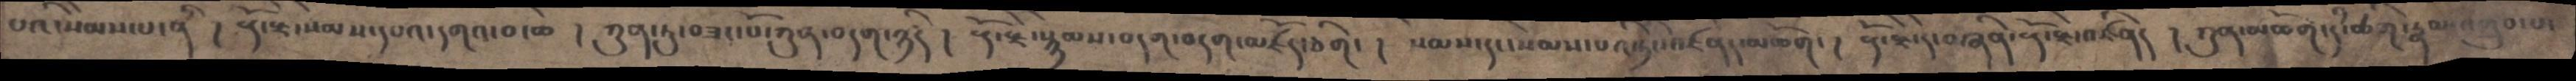པའི་སེམས་པ་ནི ། རྡོ་རྗེ་སེམས་དཔའ་དགའ་བ་ཆེ ། ཀུན་ཏུ་བཟང་པོ་ཀུན་བདག་ཉིད ། རྡོ་རྗེ་སྙེམས་བདག་བདག་མཛོད་ཅིག་ ། སེམས་དང་སེམས་པའི་ཏིང་འཛིནད་མཆོག་ ། རྡོ་རྗེ་དེ་བཞིན་རྡོ་རྗེ་འཛིན། །ཀུན་མཆོག་དཾ་ཚིག་རྣམ་འགྲུབ་པ་
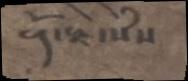རྡོ་རྗེ་སེཾས
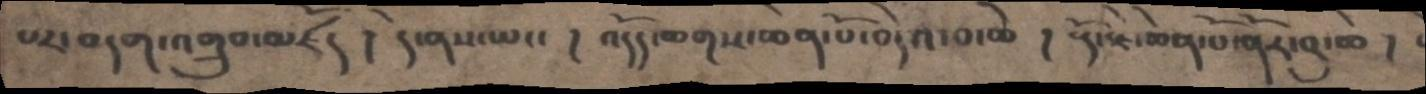པར་བདག་འགྲུབ་མཛད ། དེ་ནས་ཡང་ ། འདོད་ཆགས་ཆེན་པོ་བདེའ་བ་ཆེ ། རྡོ་རྗེ་ཆེན་པོ་ནོར་བུ་ཆེ །
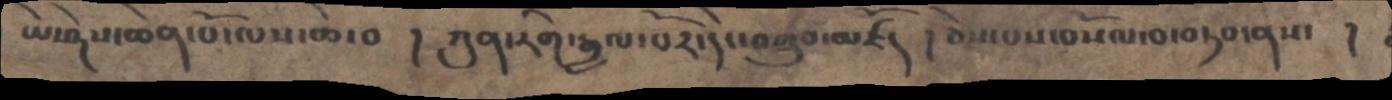ཡེ་ཤེས་ཆེན་པོ་ལས་ཆེ་བ  ། ཀུན་རིག་རྒྱལ་པོར་དེ་འགྲུབ་མཛད ། ཅེས་པས་བསོལ་བ་བཏབ་ནས་  །
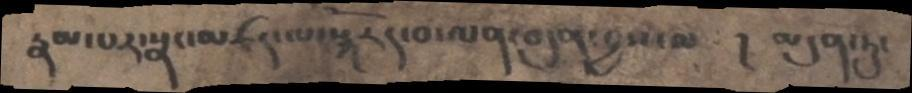རྣམ་པར་སྣང་མཛད་ལ་སྐོརད་བ་ལན་བདུན་བྱས་ལ  ། མདུན་ཏུ་
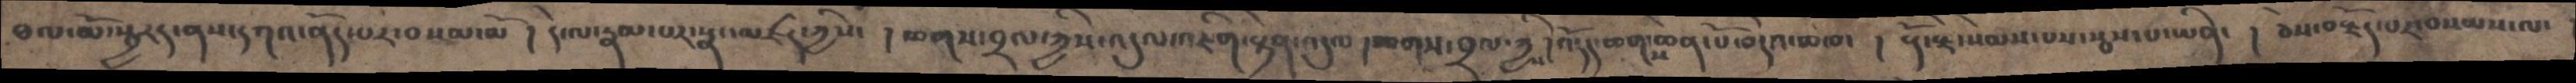ཐལ་མོ་སྦྱརད་ནས་དཀའ་ནོད་པར་བསམ་མོ། དེ་ལ་རྣམ་པར་སྣང་མཛད་ཀྱིས་ ། ཆགས་བྲལ་ཀྱིས་འདུལ་འཇིག་རྟེན་འདུལ། ཆགས་བྲལ་ཀྱིས ། འདོད་ཆགས་ཆེན་པོ་བདེའ་ཆེ་བ་ ། རྡོ་རྗེ་སེམས་པས་སྦས་པ་ཡིན་ ། ཅེས་བརྗོད་པར་བསམས་ལ་
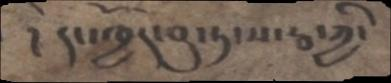། དང་ཁྱོད་བུ་ཏ་ས་རྦ་ཀྱི་
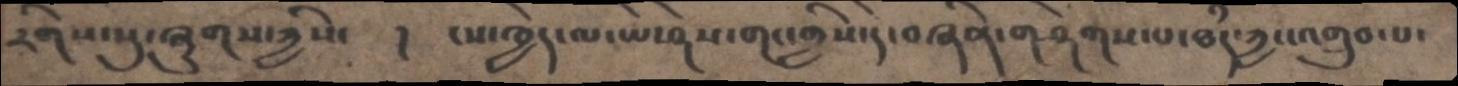རིགས་སུ་ཞུགས་ཀྱིས་  ། ངས་ཁྱེད་ལ་ཡེ་ཤེས་གང་གྱིས་དེ་བཞིན་གཤེགས་པ་ཐཾད་ཀྱང་འགྲུབ་པ་
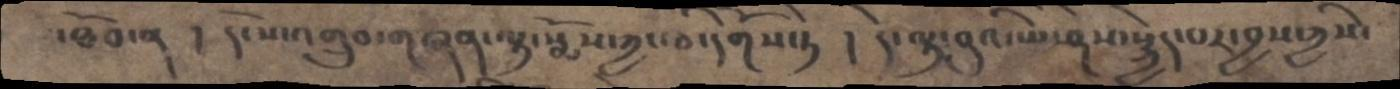་ཐོབ་ན  ། དངོས་འགྲུབ་གཞན་ལྟ་སྨོས་ཀྱང་ཅི་དགོས་ཏེ  ། དེ་ལྟ་བུའ་ཡེ་ཤེས་སྐྱེད་པར་བྱས་ཀྱིས་
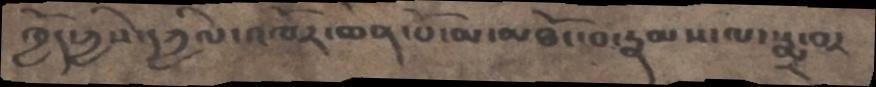ཁྱོད་ཀྱིས་དཀྱིལ་འཁོར་ཆེན་པོ་མ་མཐོང་བ་རྣམས་ལ་སྨྲ་བར
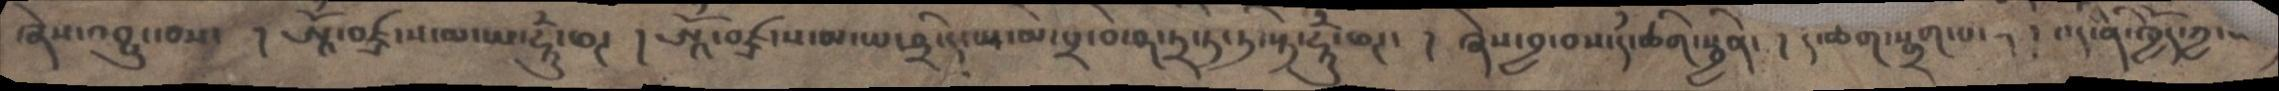ཞེས་འབྱུང་བས་ ། ཨཱོྃ་བཛྲ་ས་མ་ཡ་ཧཱུྃ་ཕཊ ། ཨཱོྃ་བཛྲ་ས་མ་ཡ་ཤྲི་ད་ཡ་མེ་པྲ་བེ་ཤ་ཏྲ་ཏེ་ཏ་སྟི་ཧཱུྃ་ཕཊ་ ། ཞེས་བྱ་བས་དཾ་ཚིག་སྦྱིན་ ། དཾ་ཚིག་སྒྲག་པའི་། འདི་ནི་ཁྱོད་ཀྱི་
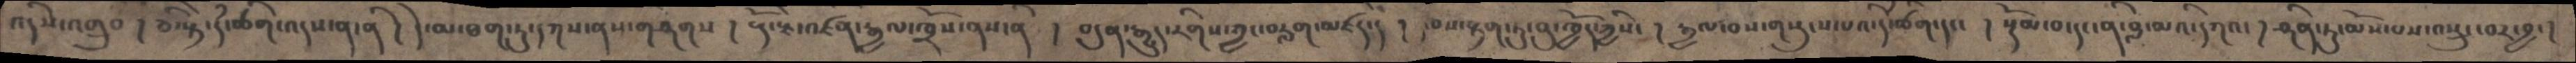འདིས་འགྲུབ ། ཅི་སྟེ་དཾ་ཚིག་འདས་ན་ནི ། དེ་མ་ཐག་ཏུ་དཀས་ནས་གཤགས ། རྡོ་རྗེ་འཛིན་རྒྱལ་ཁྲོས་ནས་ནི ། བདུན་རྒྱུད་རིགས་ཀྱང་བརླག་མཛད་དེ ། དེ་བས་རྟག་ཏུ་བུ་ཁྱོད་ཀྱིས་ ། རྒྱལ་བས་གསུངས་པའི་དཾ་ཚིག་དང་ ། སྡོམ་པ་དང་ནི་བླ་མའི་དཀའ་ ། ཤིན་ཏུ་མོས་པས་བསྲུང་བར་བྱ་ །
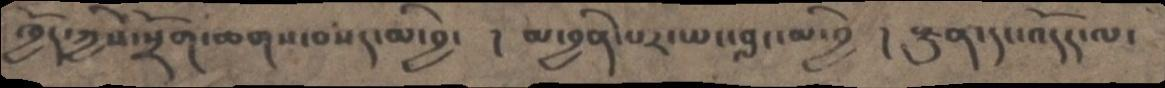ཁྱེད་ཀྱིས་སྲོག་ཆགས་བསད་མི་བྱད། མ་བྱིན་པར་ཡང་བླང་མི་བྱ། རྫུན་དང་འདོད་ལ་
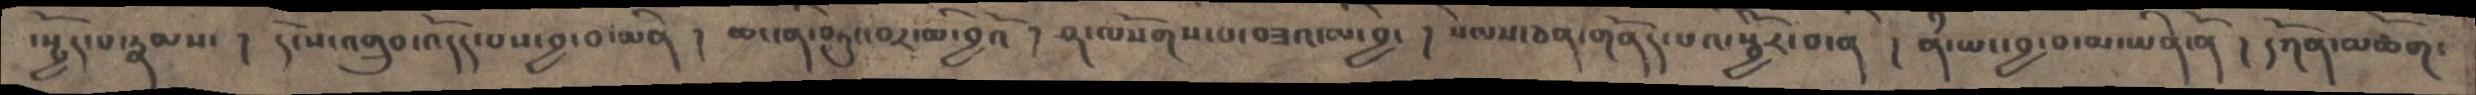་སྦྱོར་པ་རྣམས་། །དངོས་འགྲུབ་འདོད་པས་བྱ་བ་ཡིན་། ཆང་ནི་བཏུང་བར་མི་བྱའོ་། ཤ་ལསོགས་པ་བཟའ་མི་བྱ་།  སེམས་ཅན་གནོད་པའི་སྦྱོར་བ་ནི་།  ནཾ་ཡང་བྱ་བ་མ་ཡིན་ནོ་།  དཀོན་མཆོག་
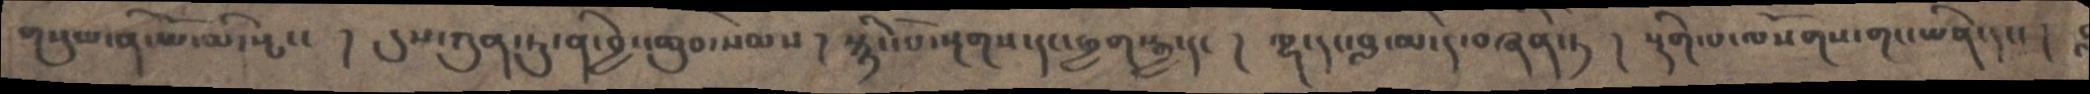གསུམ་ནི་ཡོ་མི་སྤང་ ། དུས་ཀུན་ཏུ་ནི་བྱང་ཆུབ་སེམས ། སྙིང་པོ་སྔགས་དང་ཕྱག་རྒྱ་དང ། ལྷ་དང་བླ་མ་དེ་བཞིན་ཏེ ། སྡིག་པ་ལསོགས་གང་ཡིན་དང་ །
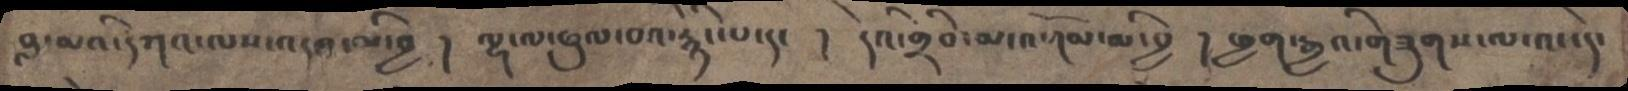བླ་མའི་དཀའ་ལས་འདའ་མི་བྱ ། ལྷ་ལ་ཕུལ་བའི་རྙིང་པ་དང ། དེའི་གྲིབ་མ་འགོམ་མི་བྱ ། ཕྱག་རྒྱའི་གཟུགས་ལ་འང་དེ་
